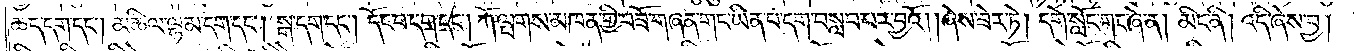ཆད་དག་དང༌། མཆིལ་ལྷམ་དག་དང༌། སྒ་དག་དང༌། དོང་པ་དག་དང༌། ཀོ་ལྤགས་མཁན་གྱི་བཟོ་གཞན་གང་ཡིན་པ་དག་བསླབ་པར་བྱའོ། །ཞེས་ཟེར་ཏེ། དགེ་སློང་གང་ཞེ་ན། མིང་ནི། འདི་ཞེས་བྱ།
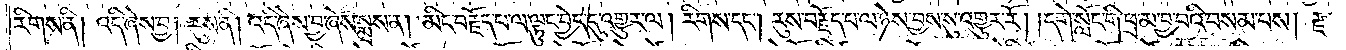རིགས་ནི། འདི་ཞེས་བྱ། རུས་ནི། འདི་ཞེས་བྱ་ཞེས་སྨྲས་ན། མིང་བརྗོད་པ་ལ་ལྟུང་བྱེད་དུ་འགྱུར་ལ། རིགས་དང༌། རུས་བརྗོད་པ་ལ་ཉེས་བྱས་སུ་འགྱུར་རོ། །དགེ་སློང་གི་ཕྲ་མ་བྱ་བའི་བསམ་པས། རྫ་
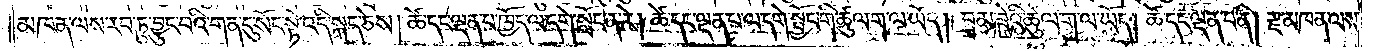མཁན་ལས་རབ་ཏུ་བྱུང་བའི་གན་དུ་སོང་སྟེ་འདི་སྐད་ཅེས། ཚེ་དང་ལྡན་པ་ཁྱོད་ལ་དགེ་སློང་ན་རེ། ཚེ་དང་ལྡན་པ་ལ་དགེ་སྦྱོང་གི་ཚུལ་ག་ལ་ཡོད། བྲམ་ཟེའི་ཚུལ་ག་ལ་ཡོད། ཚེ་དང་ལྡན་པ་ནི། རྫ་མཁན་ལས་
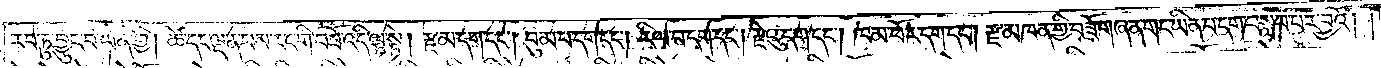རབ་ཏུ་བྱུང་བ་ཡིན་གྱི། ཚེ་དང་ལྡན་པས་རང་གི་བཟོ་འདི་ལྟ་སྟེ། རྫ་མ་དག་དང༌། བུམ་པ་དང༌། རིལ་བ་དག་དང༌། རྗེའུ་དག་དང༌། ཁམ་ཕོར་དག་དང༌། རྫ་མཁན་གྱི་བཟོ་གཞན་གང་ཡིན་པ་དག་བསླབ་པར་བྱའོ། །
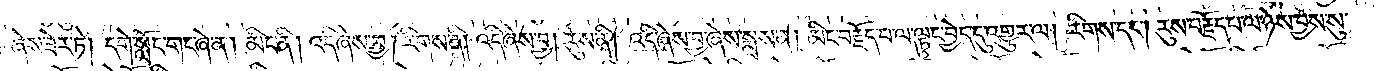ཞེས་ཟེར་ཏེ། དགེ་སློང་གང་ཞེ་ན། མིང་ནི། འདི་ཞེས་བྱ། རིགས་ནི། འདི་ཞེས་བྱ། རུས་ནི། འདི་ཞེས་བྱ་ཞེས་སྨྲས་ན། མིང་བརྗོད་པ་ལ་ལྟུང་བྱེད་དུ་འགྱུར་ལ། རིགས་དང༌། རུས་བརྗོད་པ་ལ་ཉེས་བྱས་སུ་
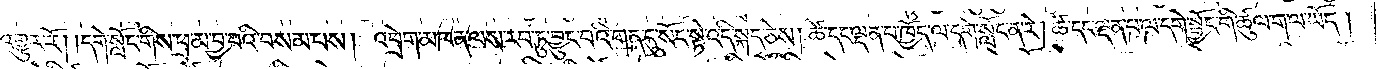འགྱུར་རོ། །དགེ་སློང་གིས་ཕྲ་མ་བྱ་བའི་བསམ་པས། འབྲེག་མཁན་ལས་རབ་ཏུ་བྱུང་བའི་གན་དུ་སོང་སྟེ་འདི་སྐད་ཅེས། ཚེ་དང་ལྡན་པ་ཁྱོད་ལ་དགེ་སློང་ན་རེ། ཚེ་དང་ལྡན་པ་ལ་དགེ་སྦྱོང་གི་ཚུལ་ག་ལ་ཡོད་།
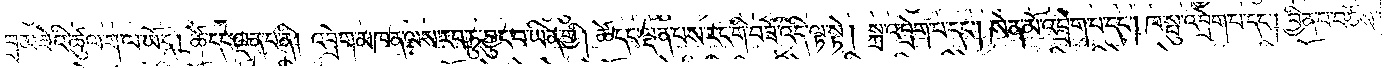བྲམ་ཟེའི་ཚུལ་ག་ལ་ཡོད། ཚེ་དང་ལྡན་པ་ནི། འབྲེག་མཁན་ལས་རབ་ཏུ་བྱུང་བ་ཡིན་གྱི། ཚེ་དང་ལྡན་པས་རང་གི་བཟོ་འདི་ལྟ་སྟེ། སྐྲ་འབྲེག་པ་དང༌། སེན་མོ་འབྲེག་པ་དང༌། ཁ་སྤུ་འབྲེག་པ་དང༌། བྱིན་པ་བཅོས་
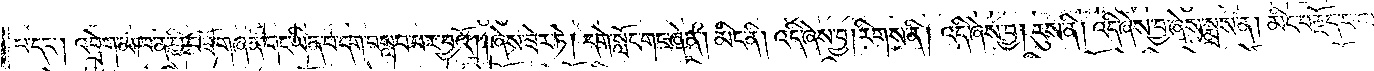པ་དང༌། འབྲེག་མཁན་གྱི་བཟོ་གཞན་གང་ཡིན་པ་དག་བསླབ་པར་བྱའོ། །ཞེས་ཟེར་ཏེ། དགེ་སློང་གང་ཞེ་ན། མིང་ནི། འདི་ཞེས་བྱ། རིགས་ནི། འདི་ཞེས་བྱ། རུས་ནི། འདི་ཞེས་བྱ་ཞེས་སྨྲས་ནས། མིང་བརྗོད་པ་ལ་
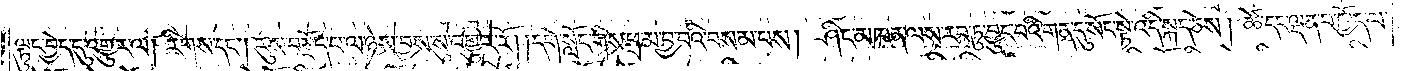ལྟུང་བྱེད་དུ་འགྱུར་ལ། རིགས་དང༌། རུས་བརྗོད་པ་ལ་ཉེས་བྱས་སུ་འགྱུར་རོ། །དགེ་སློང་གིས་ཕྲ་མ་བྱ་བའི་བསམ་པས། ཤིང་མཁན་ལས་རབ་ཏུ་བྱུང་བའི་གན་དུ་སོང་སྟེ་འདི་སྐད་ཅེས། ཚེ་དང་ལྡན་པ་ཁྱོད་ལ་
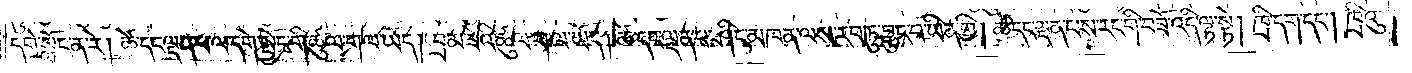དགེ་སློང་ན་རེ། ཚེ་དང་ལྡན་པ་དགེ་སྦྱོང་གི་ཚུལ་ག་ལ་ཡོད། བྲམ་ཟེའི་ཚུལ་ག་ལ་ཡོད། ཚེ་དང་ལྡན་པ་ཤིང་མཁན་ལས་རབ་ཏུ་བྱུང་བ་ཡིན་གྱི། ཚེ་དང་ལྡན་པས་རང་གི་བཟོ་འདི་ལྟ་སྟེ། ཁྲི་དག་དང༌། ཁྲིའུ་
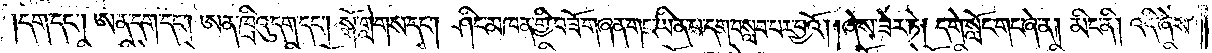དག་དང༌། ཨན་དག་དང༌། ཨན་ཁྲིའུ་དག་དང༌། སྒོ་གླེགས་དང༌། ཤིང་མཁན་གྱི་བཟོ་གཞན་གང་ཡིན་པ་དག་བསླབ་པར་བྱའོ། །ཞེས་ཟེར་ཏེ། དགེ་སློང་གང་ཞེ་ན། མིང་ནི། །འདི་ཞེས་
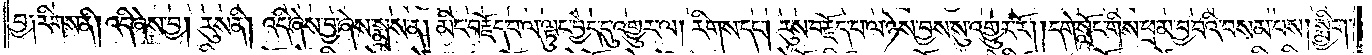བྱ༑ རིགས་ནི། འདི་ཞེས་བྱ། རུས་ནི། འདི་ཞེས་བྱ་ཞེས་སྨྲས་ན། མིང་བརྗོད་པ་ལ་ལྟུང་བྱེད་དུ་འགྱུར་ལ། རིགས་དང༌། རུས་བརྗོད་པ་ལ་ཉེས་བྱས་སུ་འགྱུར་རོ། །དགེ་སློང་གིས་ཕྲ་མ་བྱ་བའི་བསམ་པས། སྨྱིག་
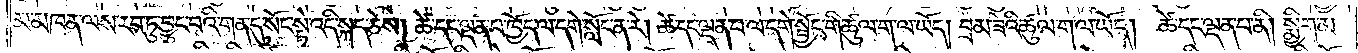མ་མཁན་ལས་རབ་ཏུ་བྱུང་བའི་གན་དུ་སོང་སྟེ་འདི་སྐད་ཅེས། ཚེ་དང་ལྡན་པ་ཁྱོད་ལ་དགེ་སློང་ན་རེ། ཚེ་དང་ལྡན་པ་ལ་དགེ་སྦྱོང་གི་ཚུལ་ག་ལ་ཡོད། བྲམ་ཟེའི་ཚུལ་ག་ལ་ཡོད། ཚེ་དང་ལྡན་པ་ནི། སྨྱིག་མ་
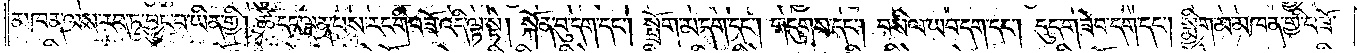མཁན་ལས་རབ་ཏུ་བྱུང་བ་ཡིན་གྱི། ཚེ་དང་ལྡན་པས་རང་གི་བཟོ་འདི་ལྟ་སྟེ། སྐོན་བུ་དག་དང༌། སྤྲོག་མ་དག་དང༌། གདུགས་དང༌། བསིལ་ཡབ་དག་དང༌། དུད་གཟེབ་དག་དང༌། སྨྱིག་མ་མཁན་གྱི་བཟོ་
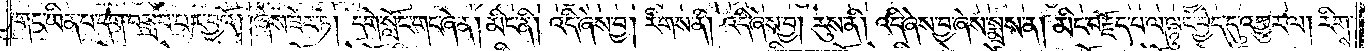གང་ཡིན་པ་དག་བསླབ་པར་བྱའོ། །ཞེས་ཟེར་ཏེ། དགེ་སློང་གང་ཞེ་ན། མིང་ནི། འདི་ཞེས་བྱ། རིགས་ནི། འདི་ཞེས་བྱ། རུས་ནི། འདི་ཞེས་བྱ་ཞེས་སྨྲས་ན། མིང་བརྗོད་པ་ལ་ལྟུང་བྱེད་དུ་འགྱུར་ལ། རིགས་
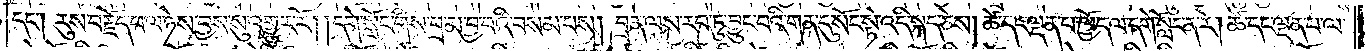དང༌། རུས་བརྗོད་པ་ལ་ཉེས་བྱས་སུ་འགྱུར་རོ། །དགེ་སློང་གིས་ཕྲ་མ་བྱ་བའི་བསམ་པས། བྲན་ལས་རབ་ཏུ་བྱུང་བའི་གན་དུ་སོང་སྟེ་འདི་སྐད་ཅེས། ཚེ་དང་ལྡན་པ་ཁྱོད་ལ་དགེ་སློང་ན་རེ། ཚེ་དང་ལྡན་པ་ལ་
